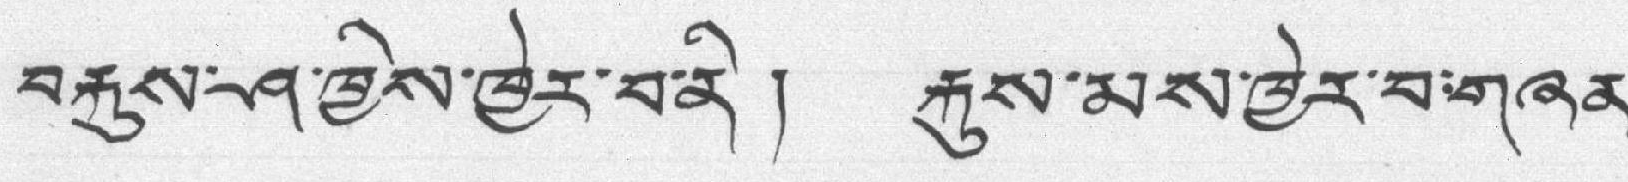བརྐུས་ཤ་ཁྱིས་ཁྱེར་བ་ནི། རྐུས་མས་ཁྱེར་བ་གཞན་
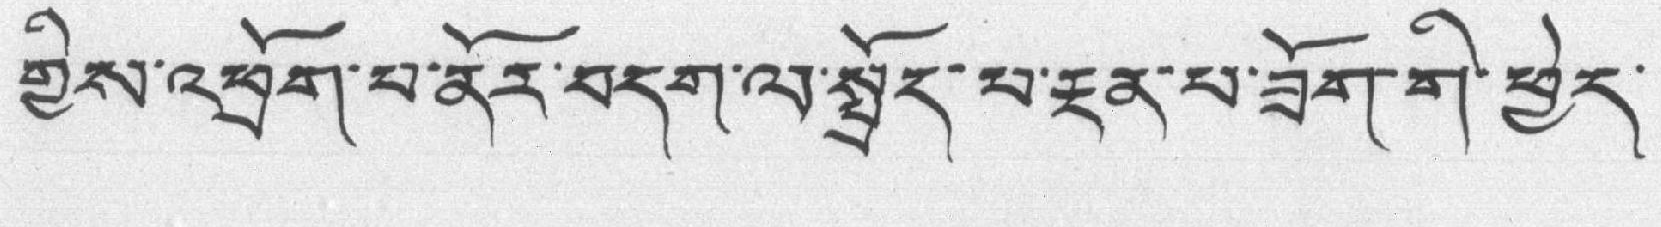གྱིས་འཕྲོག་པ་ནོར་བདག་ལ་སྤྲོད་པ་རྔན་པ་ཟོག་གི་ཕྱེད་
